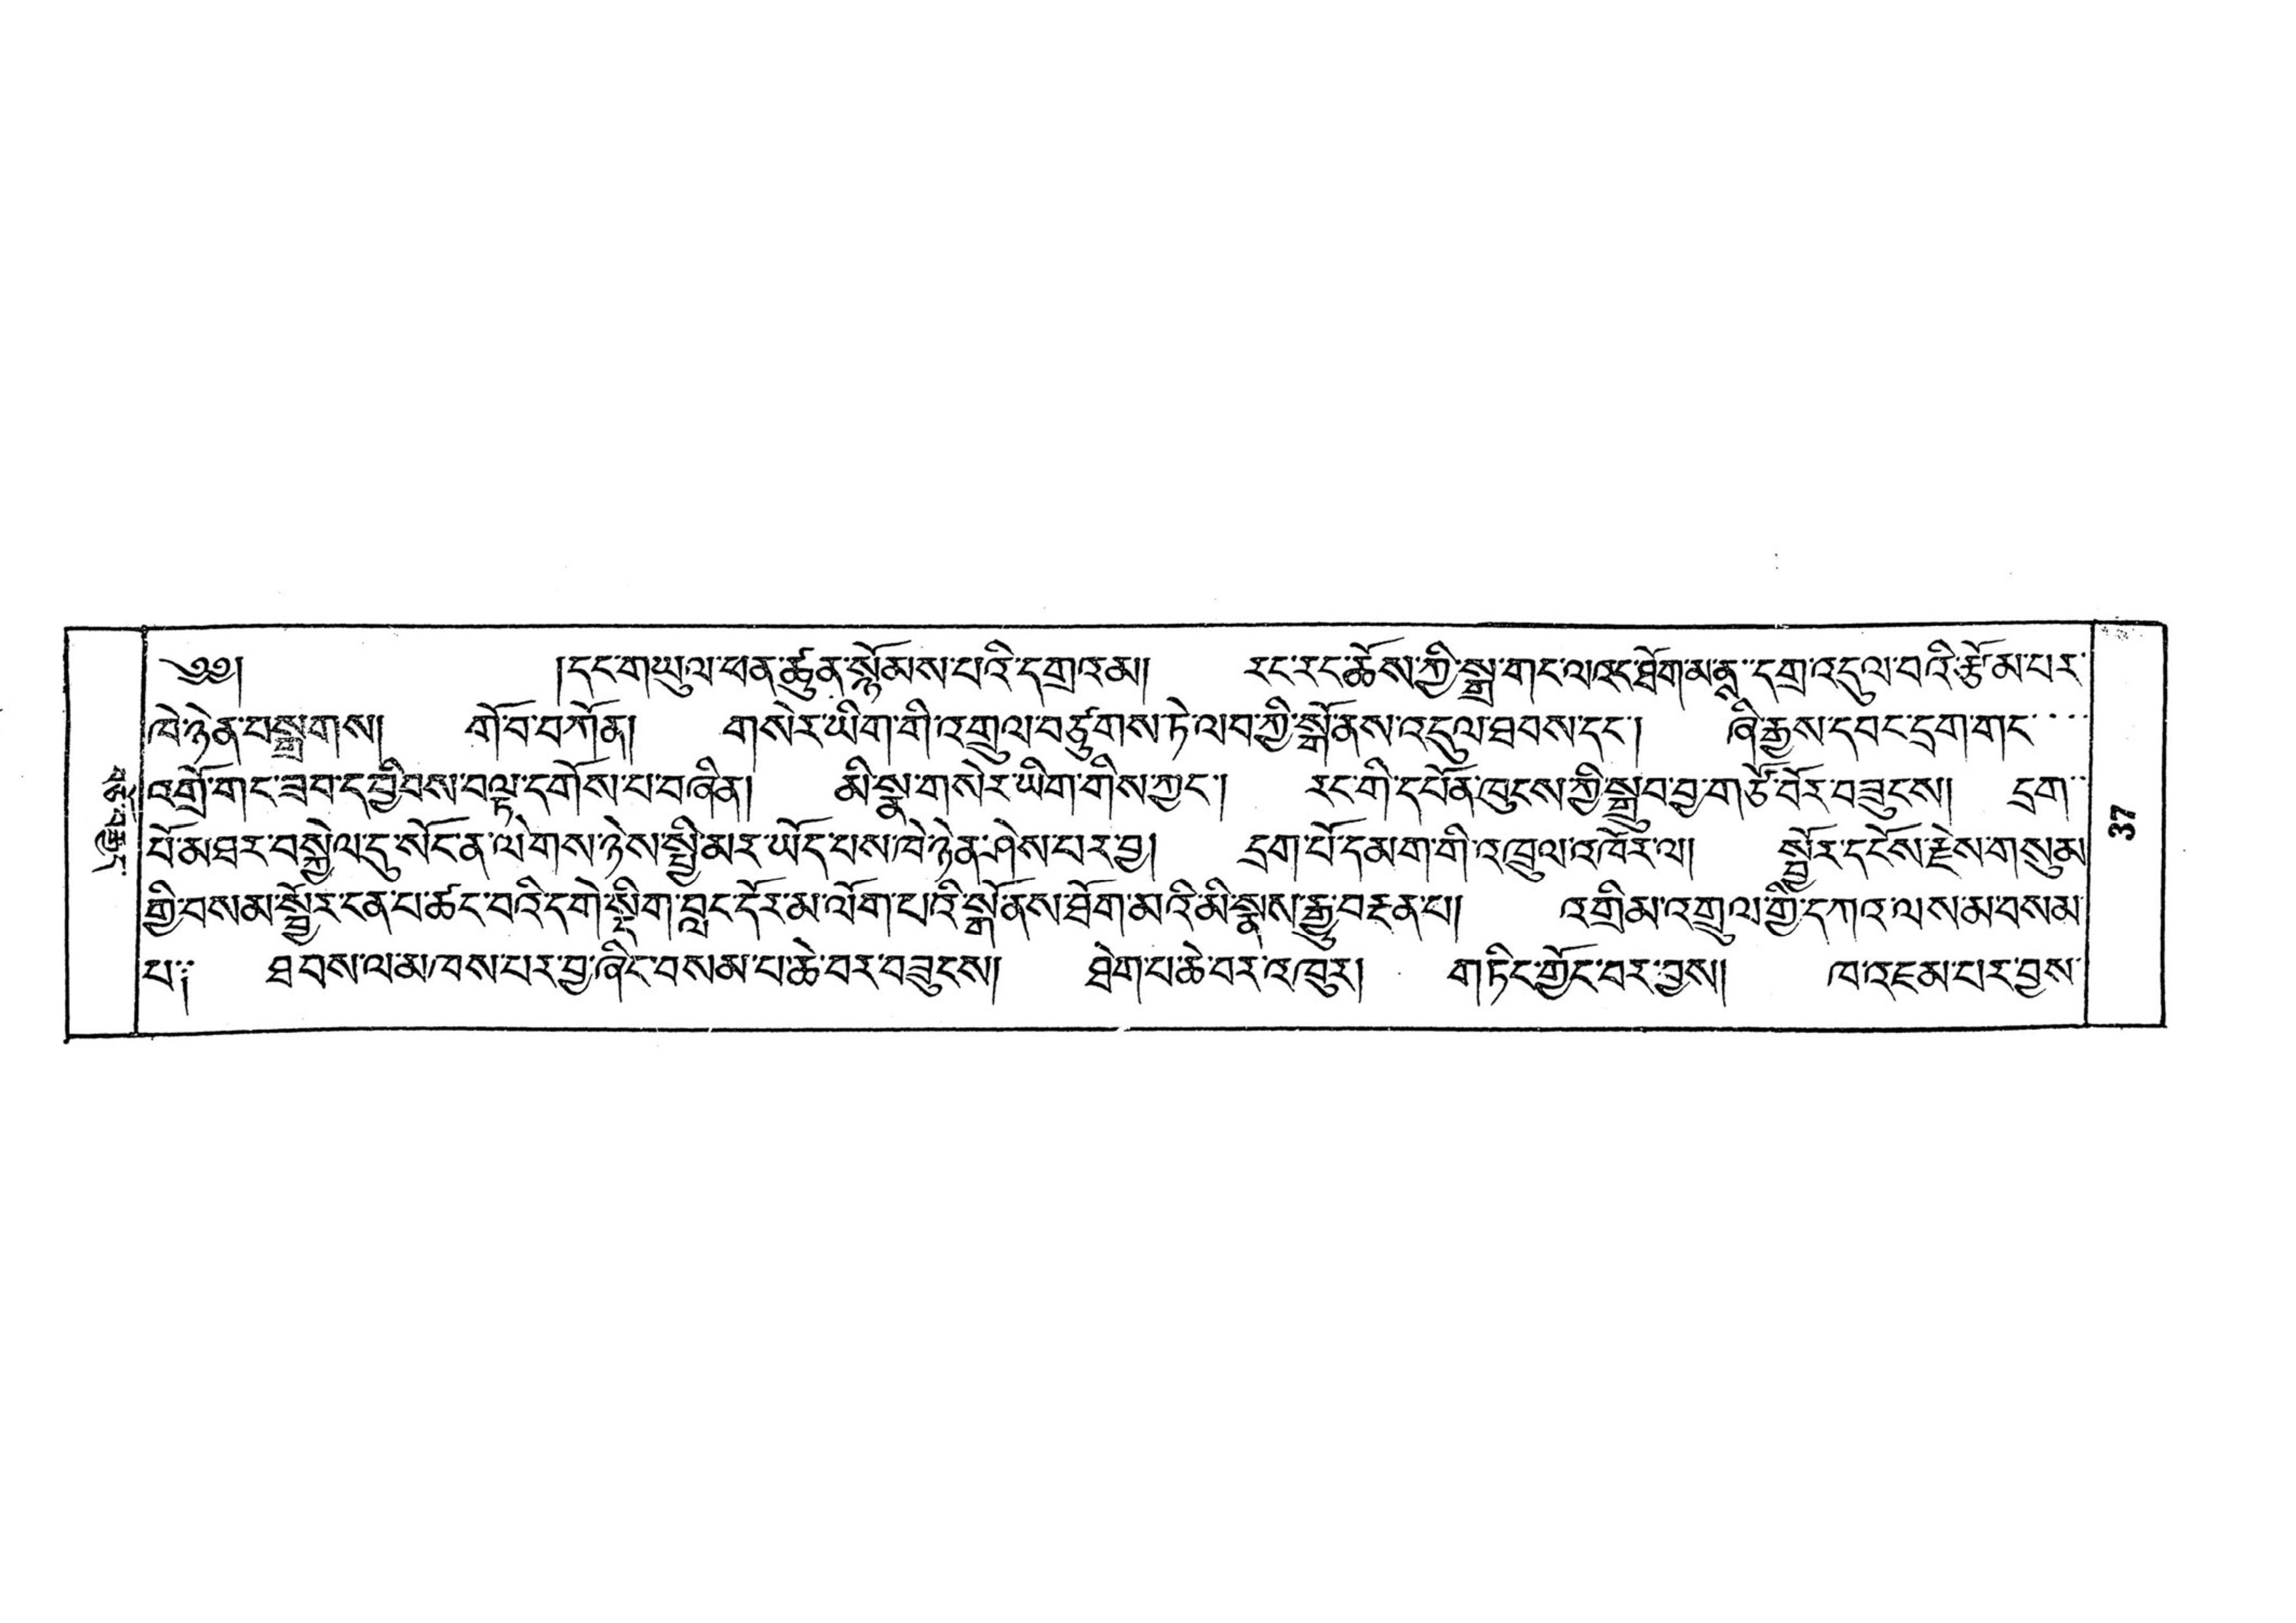བཅོ་བརྒྱད་
༄༅། །དང་གཡུལ་ཕན་ཚུན་སྙོམས་པའི་དགྲའམ། རང་རང་ཆོས་ཀྱི་སྒྲ་གང་ལའང་ཐོག་མ་ནས་་དགྲ་འདུལ་བའི་རྩོམ་པར་
ཁེ་ཉེན་བསྒྲགས། གོ་བ་བཀོན། གསེར་ཡིག་གི་འགྲུལ་བཙུགས་ཏེ་ལབ་ཀྱི་སྒོ་ནས་འདུལ་ཐབས་དང་། ཞི་རྒྱས་དབང་དྲག་གང་་་་
འགྲོ་གང་ཟབ་དབྱིབས་བལྟ་དགོས་པ་བཞིན། མི་སྣ་གསེར་ཡིག་གིས་ཀྱང་། རང་གི་དཔོན་ཁུངས་ཀྱི་སྒྲུབ་བྱ་གཙོ་བོར་བཟུངས། དྲག་་
པོ་མཐར་བསྐྱེལ་དུ་སོང་ན་ལེགས་ཉེས་སྤྱི་མར་ཡོད་པས་ཁེ་ཉེན་ཤེས་པར་བྱ། དྲག་པོ་དམག་གི་འཁྲུལ་འཁོར་ལ། སྦྱོར་དངོས་རྗེས་གསུམ་
གྱི་བསམ་སྦྱོར་ངན་པ་ཚང་བའི་དགེ་སྡིག་བླང་དོར་མ་ལོག་པའི་སྒོ་ནས་ཐོག་མའི་མི་སྣས་རྒྱུ་བརྔན་པ། འགྲིམ་འགྲུལ་གྱི་དཀའ་ལས་མ་བསམ་
པ༑ ཐབས་ལ་མཁས་པར་བྱ་ཞིང་བསམ་པ་ཆེ་བར་བཟུངས། ཐེག་པ་ཆེ་བར་འཁུར། གཏིང་གྱོང་བར་བྱས། ཁ་འཇམ་པར་བྱས་
